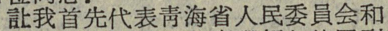让我首先代表靑海省人民委員会和
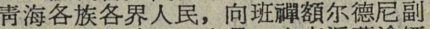靑海各族各界人民，向班禪額尔德尼副
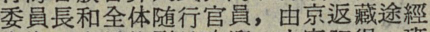委員長和全体随行官員，由京返藏途經
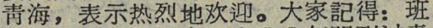靑海，表示热烈地次迎。大家記得：班
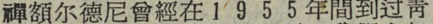禪額尔德尼曾經在1955年間到过靑
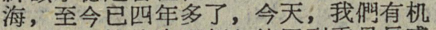海，至今已四年多了，今天，我們有机
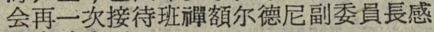会再一次接待班禪額尔德尼副委員長感
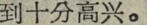到十分高兴。
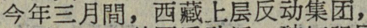今年三月間，西藏上层反动集团，
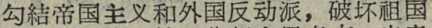勾結帝国主义和外国反动派，破坏祖国
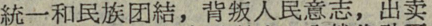統一和民族团結，背叛人民意志，出卖
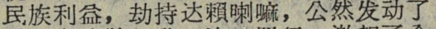民族利益，劫持达賴喇嘛，公然发动了
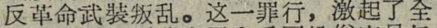反革命武装叛乱。这一罪行，激起了全
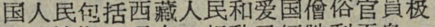国人民包括西藏人民和爱国僧俗官員极
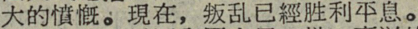大的憤慨。現在，叛乱已經胜利平息。
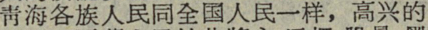靑海各族人民同全国人民一样，高兴的
